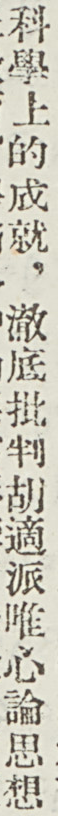科學上的成就，澈底批判胡適派唯心論思想
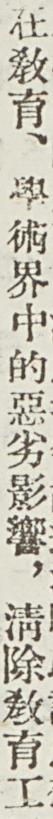在敎育、學術界中的惡劣影響，清除敎育工
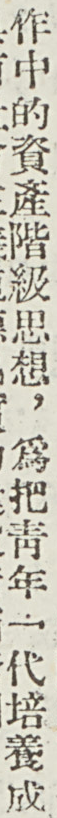作中的資產階級思想，爲把靑年一代培養成
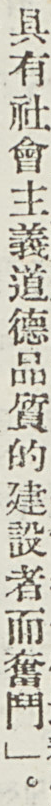具有社會主義道德品質的建設者而奮鬥」。
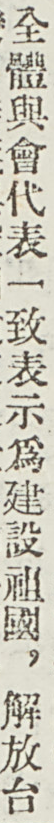全體與會代表一致表示爲建設祖國，解放台
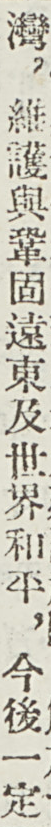灣，維護與鞏固遠東及世界和平，今後一定
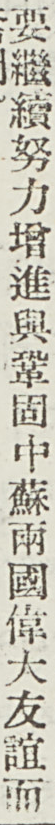要繼續努力增進與鞏固中蘇兩國偉大友誼而
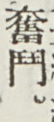奮鬥。
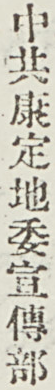中共康定地委宣傳部
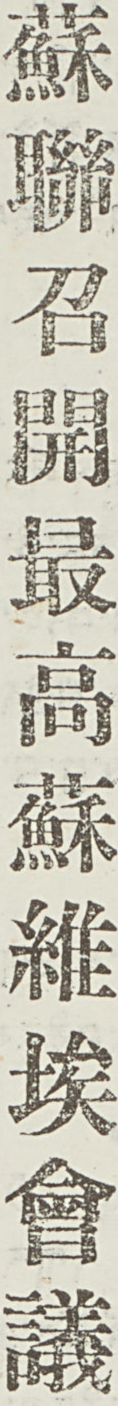蘇聯召開最高蘇維埃會議
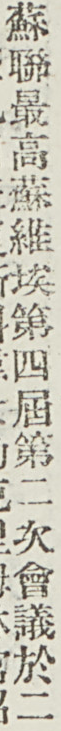蘇聯最高蘇維埃第四屆第二次會議於二
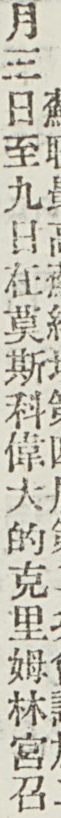月三日至九日在莫斯科偉大的克里姆林宮召
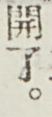開了。
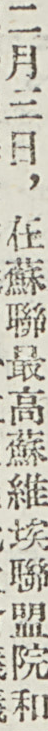二月三日，在蘇聯最高蘇維埃聯盟院和
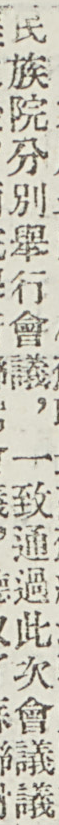民族院分別舉行會議，一致通過此次會議議
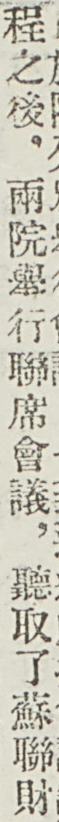程之後，兩院舉行聯席會議，聽取了蘇聯財
